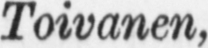synt. Toivanen.
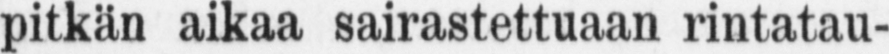pitkän aikaa sairastettuaan rintatau-
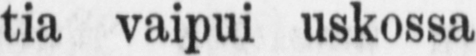tia vaipui uskossa
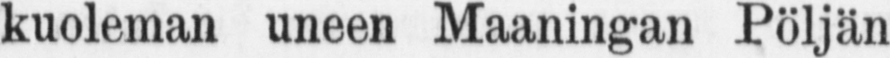kuoleman uneen Maaningan pöljän
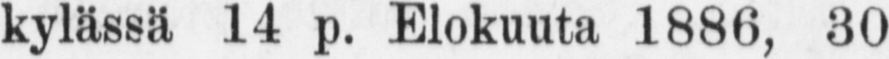Kylässä 14 p. Elokuuta 1886, 30
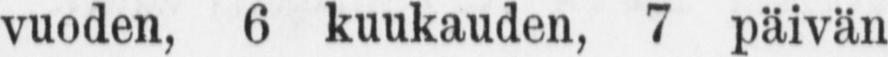vuoden, 6 kuukauden, 7 päivän
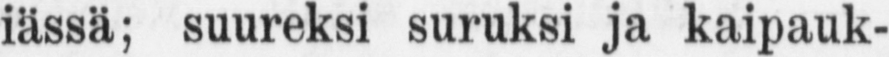iässä; suureksi suruksi ja kaipauk-
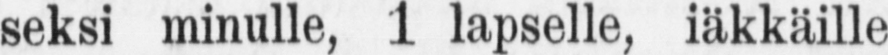seksi minulle, 1 lapselle, iäkkäille
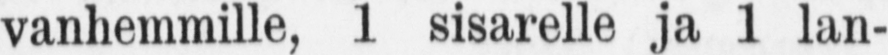vankemmille, 1 sisarelle ja 1 lan-
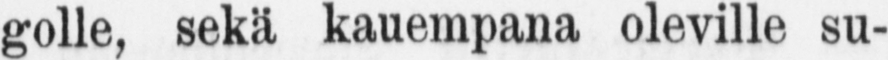golle, sekä kauempana oleville su-
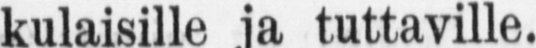kulaisille ja tuttaville.
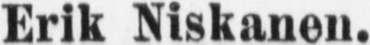Erik Niskanen.
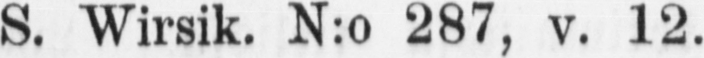S. Wirsik. N:o 287, v. 12.
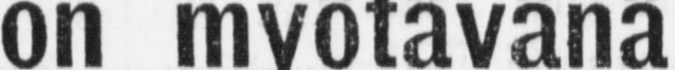on my ötävänä
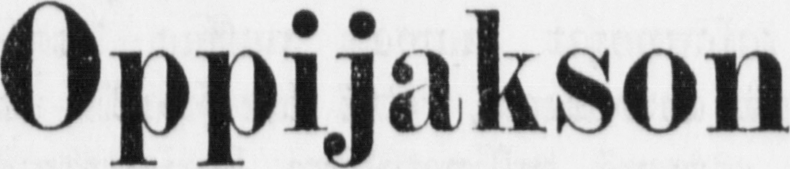Oppijakson
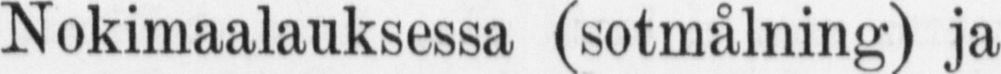Nokimaalauksessa ja
